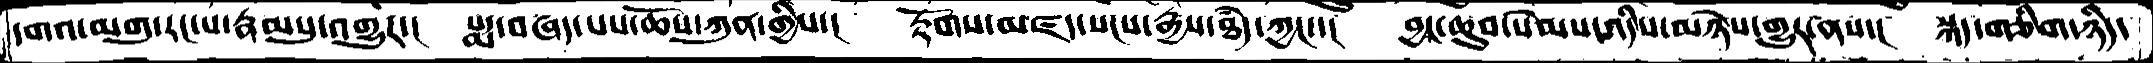དགའ་མགུ་རང་པ་རྣམསུ་འགྱུར་།   པདྨ་བཞད་པས་ཆོས་ཀུན་གྱིས་།  རྟོགས་མཛད་སངས་རྒྱས་ཐཾད་ཀྱང་་།  བྱང་ཆུབ་སེམས་འདིས་མཉེས་གྱུར་ནས་།  སྐད་ཅིག་ཉིད་
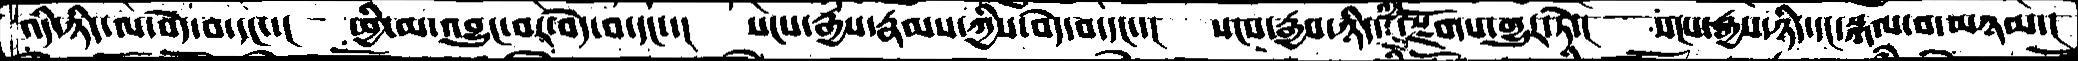འདི་ཉིད་ལ་བདེ་བ་དང་་།   ཕྱི་མ་འབྱུང་བར་བདེ་བ་དང་་།  སངས་རྒྱས་རྣམས་ཀྱིས་བདེ་བ་དང་་།   སངས་རྒྱས་ཉིད་དུ་སྫོགས་གྱུར་ཏེ་།   སངས་རྒྱས་ཉིད་དང་སྐལ་བ་མཉམ་།
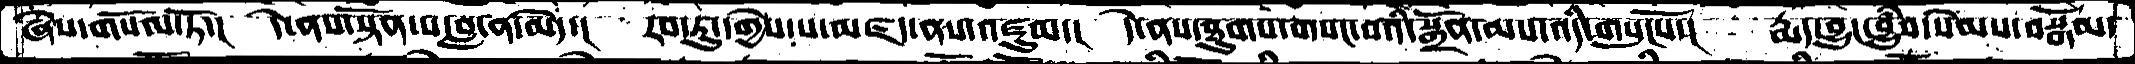ཞེས་གསོལ་ཏོ་།  དེ་ནས་སྟོན་པ་བླ་ན་མེད་།  རབ་ཏུ་དགྱེས་པ་མཛད་ནས་འཛུམ་།  དེ་ནས་ཐུགས་གསང་བའི་སྒྲོན་མས་འདི་གསུངསོ་།   རྨད་བྱུང་བྱུཾབ་སེམས་བསྒོམ་
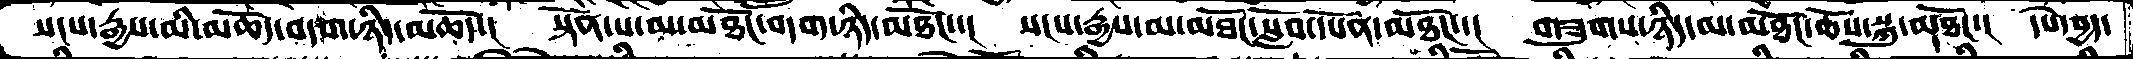སངས་རྒྱས་མི་མཆོད་བདག་ཉིད་མཆོད་།  སྟོན་པ་མ་མཐོང་བདག་ཉིད་མཐོང་་།  སངས་རྒྱས་མ་མཐོང་སློབ་དཔོན་མཐོང་་།  གཟུགས་ཉིད་མ་མཐོང་ཆོས་སྐུ་མཐོང་་། དཔེ་བྱད་
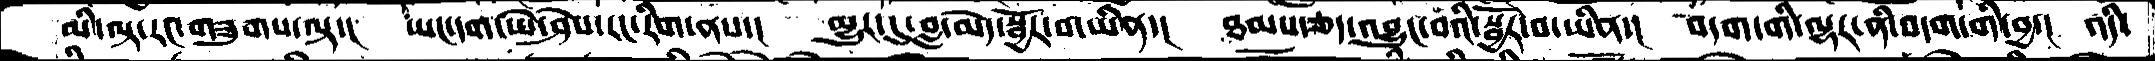མི་ལྟ་རང་གཟུགས་ལྟ་། ཡང་དག་ཡེ་ཤེས་རང་རིག་ནས་།  མྱུར་དུ་བླ་མེད་སྦྱོར་བ་ཡིན་།  ཐམས་ཅད་འབྱུང་བའི་སྦྱོར་བ་་ཡིན་།  བདག་གི་ལྷར་ནི་བདག་གི་བྱ་།  འདི་
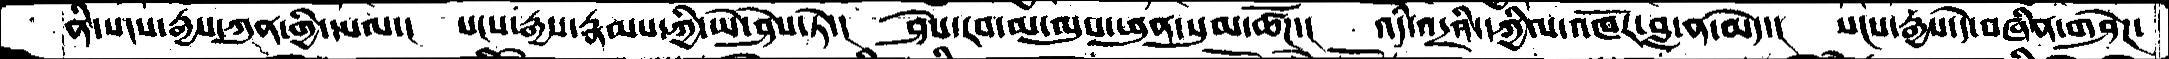ནི་སངས་རྒྱས་ཀུན་གྱི་དཔལ་།  སངས་རྒྱས་རྣམས་ཀྱི་ཡེ་ཤེས་ཏེ་།   ཤེས་རབ་མ་ལུས་ཕུན་སུམ་ཚོཌ་།  འདི་འདྲའི་དཀྱིལ་འཁོར་བླ་ན་མེད་།   སངས་རྒྱས་དེ་བཞིན་གཤེཌ་
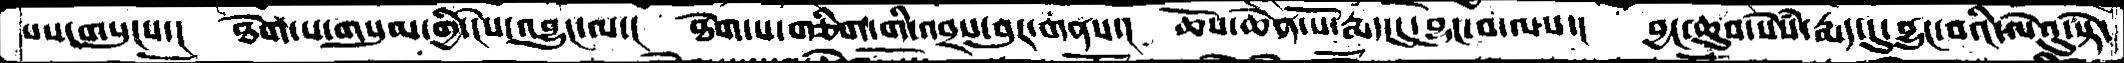པས་གསུངས་། ཐེག་པ་གསུམ་གྱི་ངེས་འབྱུང་ལ་།  ཐེག་པ་གཅིག་གི་འབྲས་བུར་གནས་།   ཆོས་ཆེན་པོ་རྨད་དུ་བྱུང་བ་ལས་།  བྱང་ཆུབ་སེསཾ་རྨད་དུ་བྱུང་བའི་ལེའུ་སྟེ་
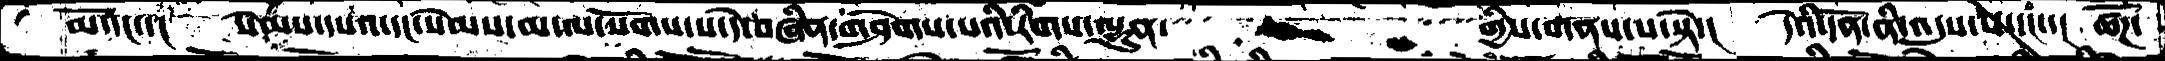མོའང་་།   སེམས་དཔའ་དང་སེམས་མ་ལ་སོགས་པ་དེ་བཞིན་གཤེགས་པའི་རིགས་ལྷུན་གྱིས་གནས་པ་སྟེ་།   དེའི་དོན་ནི་འདུས་པ་དང་་།  ཚོཌ་
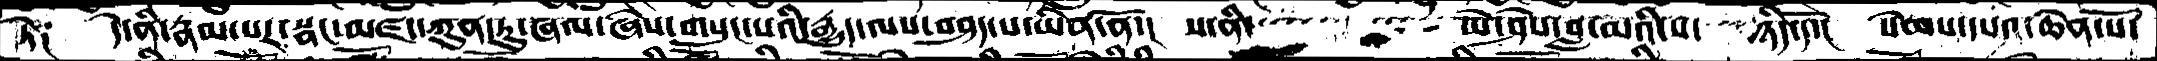ཏེ༑   དེ་ནི་རྣམ་པར་སྣང་མཛད་ཀུན་ཏུ་ཞལ་ཞེས་གསུང་པའི་རྒྱུད་ལས་བཤད་པ་ཡིན་ནོ་།  ས་ནི་       ཡེ་ཤེས་བླ་མའི་ས་   ཉིད་དོ་།   སེམས་དཔའ་ཆེན་པོ་
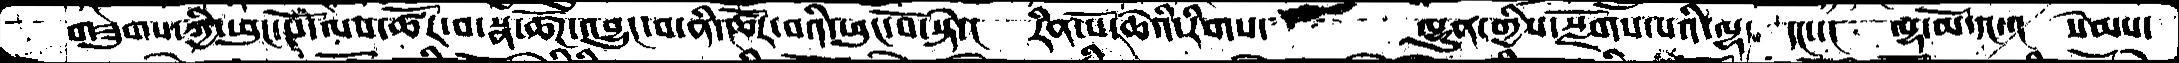གཟུགས་ཀྱི་ཕུང་པོ་ལས་ཚོར་བ་སྣ་ཚོཌ་འབྱུང་བ་ནི་ཚོར་བའི་ཕུང་པོ་སྟེ་།    རིན་པོ་ཆེའི་རིགས་      ལྷུན་གྱིས་སྫོགས་པའི་ལྷ་   དང་་།   ལྷ་མོ་དང་་།  སེམས་
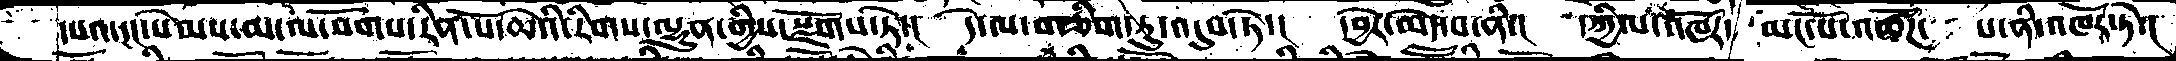དཔའ་དང་སེམས་མ་ལ་སོགས་རིན་པོ་ཆེའི་རིགས་ལྷུན་གྱིས་སྫོགས་ཏེ་།   དེ་ལ་གཅིག་ཏུ་འདུས་ཏེ་།   དབྱེར་མེད་པ་ནི་།   དཀྱིལ་འཁོར་  མང་པོ་འཚོཌ་   པ་ནི་འཁོར་ཏེ་།
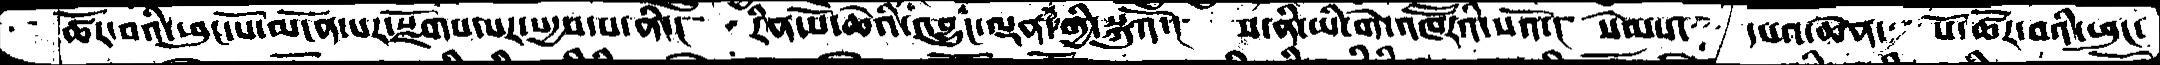ཚོར་བའི་ཕུང་པོ་མངོན་པར་སྫོགས་པར་སདྱས་པ་ནི་།    རིན་པོ་ཆེའི་འབྱུང་ལྡན་གྱི་སྐུའོ་།   ས་ནི་ཡི་གེ་འཁཽརའི་སའོ་།  སེམས་   དཔའ་ཆེན་   པོ་ཚོར་བའི་ཕུང་
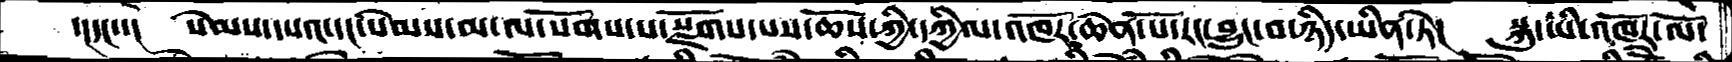་།དང་་།  སེམས་དཔའ་དང་སེམས་མ་ལ་སོགས་པ་སྫོགས་པས་ཆོས་ཀྱི་དཀྱིལ་འཁོར་ཆེན་པོ་རང་བྱུང་བ་ཉིད་ཡིན་ཏེ།  སྐུ་ཡི་འཁོར་ལོ་
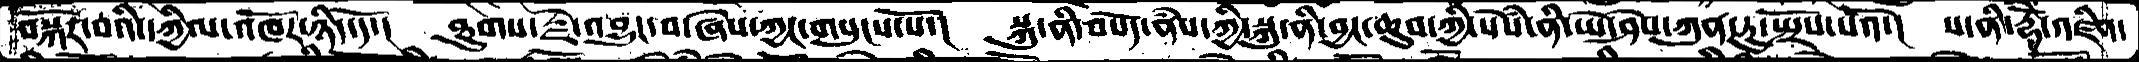བསྐོར་བའི་དཀྱིལ་འཁོར་ཉིད་དོ་།  ཐུགས་རྗེ་འབྱུང་བ་ཞེས་ཀྱང་གསུངས་སོ་།  སྐུ་ནི་བསོད་ནཾས་ཀྱི་སྐུ་ནི་བྱང་ཆུབ་ཀྱི་སེཾས་ནི་ཡེ་ཤེས་ཀུན་ཏུ་སྤྲོས་པའོ་།  ས་ནི་རྡོེ་འཛིན་
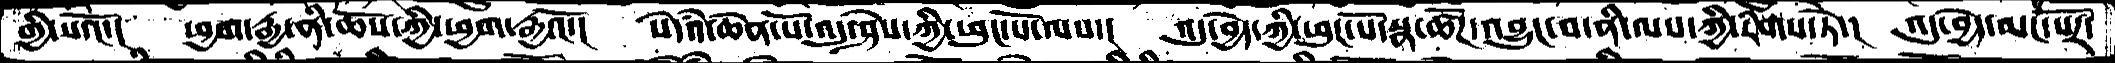གྱི་སའོ་།  ཕྱག་རྒྱ་ནི་ཆོས་ཀྱི་ཕྱག་རྒྱའོ་།   སེདའཾ་ཆེན་པོ་འདུ་ཤེས་ཀྱི་ཕུང་པོ་ལས་།  འདུ་བྱེད་ཀྱི་ཕུང་པོ་སྣ་ཚོཌ་འབྱུང་བ་ནི་ལས་ཀྱི་རིགས་ཏེ་།  འདུ་བྱེད་མང་པོར་
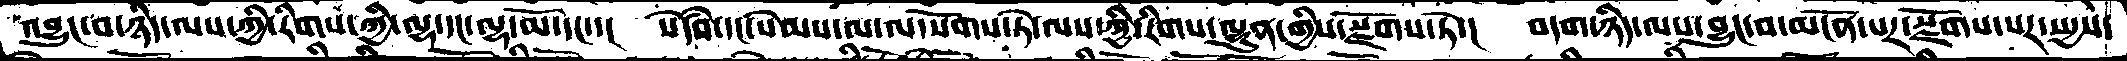འབྱུང་བ་ཉིད་ལས་ཀྱི་རིགས་ཀྱི་ལྷ་དང་ལྷ་མོ་དང་།  སེདའཾ་དང་སེམས་མ་ལ་སོགས་ཏེ་ལས་ཀྱི་རིགས་ལྷུན་གྱིས་སྫོགས་ཏེ་།  བདག་ཉིད་ལས་བྱུང་བ་མངོན་པར་སྫོགས་པར་སདྱས་
